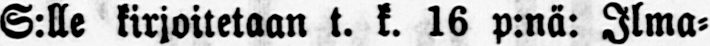S:lle kirjoitetaan t. k. 16 p:nä: Ilma-
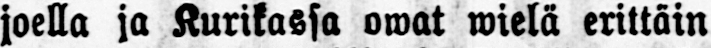joella ja Kurikassa owat wielä erittäin
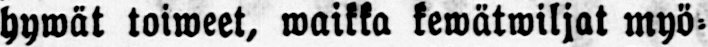hywät toiweet, waikka kewätwiljat myö-
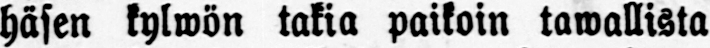häsen kylwön takia paikoin tawallista
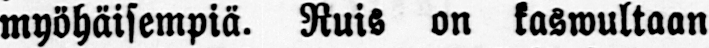myöhäisempiä. Ruis on kaswultaan
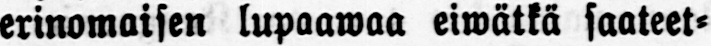erinomaisen lupaawaa eiwätkä saateet-
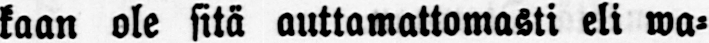kaan ole sitä auttamattomasti eli wa-
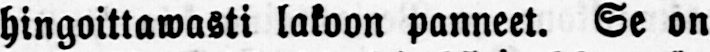hingoittawasti lakoon panneet. Se on
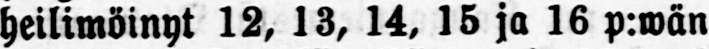heilimöinyt 12, 13, 14, 15 ja 16 p:wän
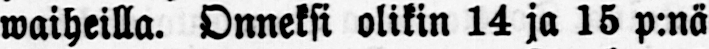waiheilla. Onneksi olikin 14 ja 15 p:nä
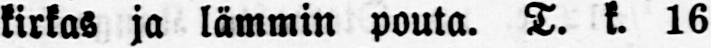kirkas ja lämmin pouta. T. k. 16
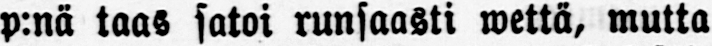p.nä taas satoi runsaasti wettä, mutta
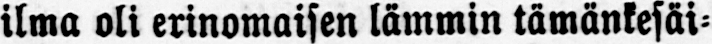ilma oli erinomaisen lämmin tämänkesäi-
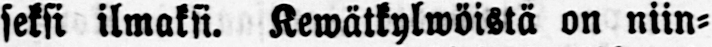seksi ilmaksi. Kewätkylwöistä on niin-
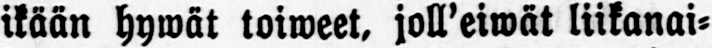ikään hywät toiweet, joll'eiwät liikanai-
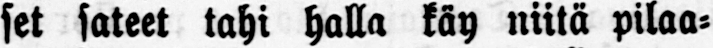set sateet tahi halla käy niitä pilaa-
